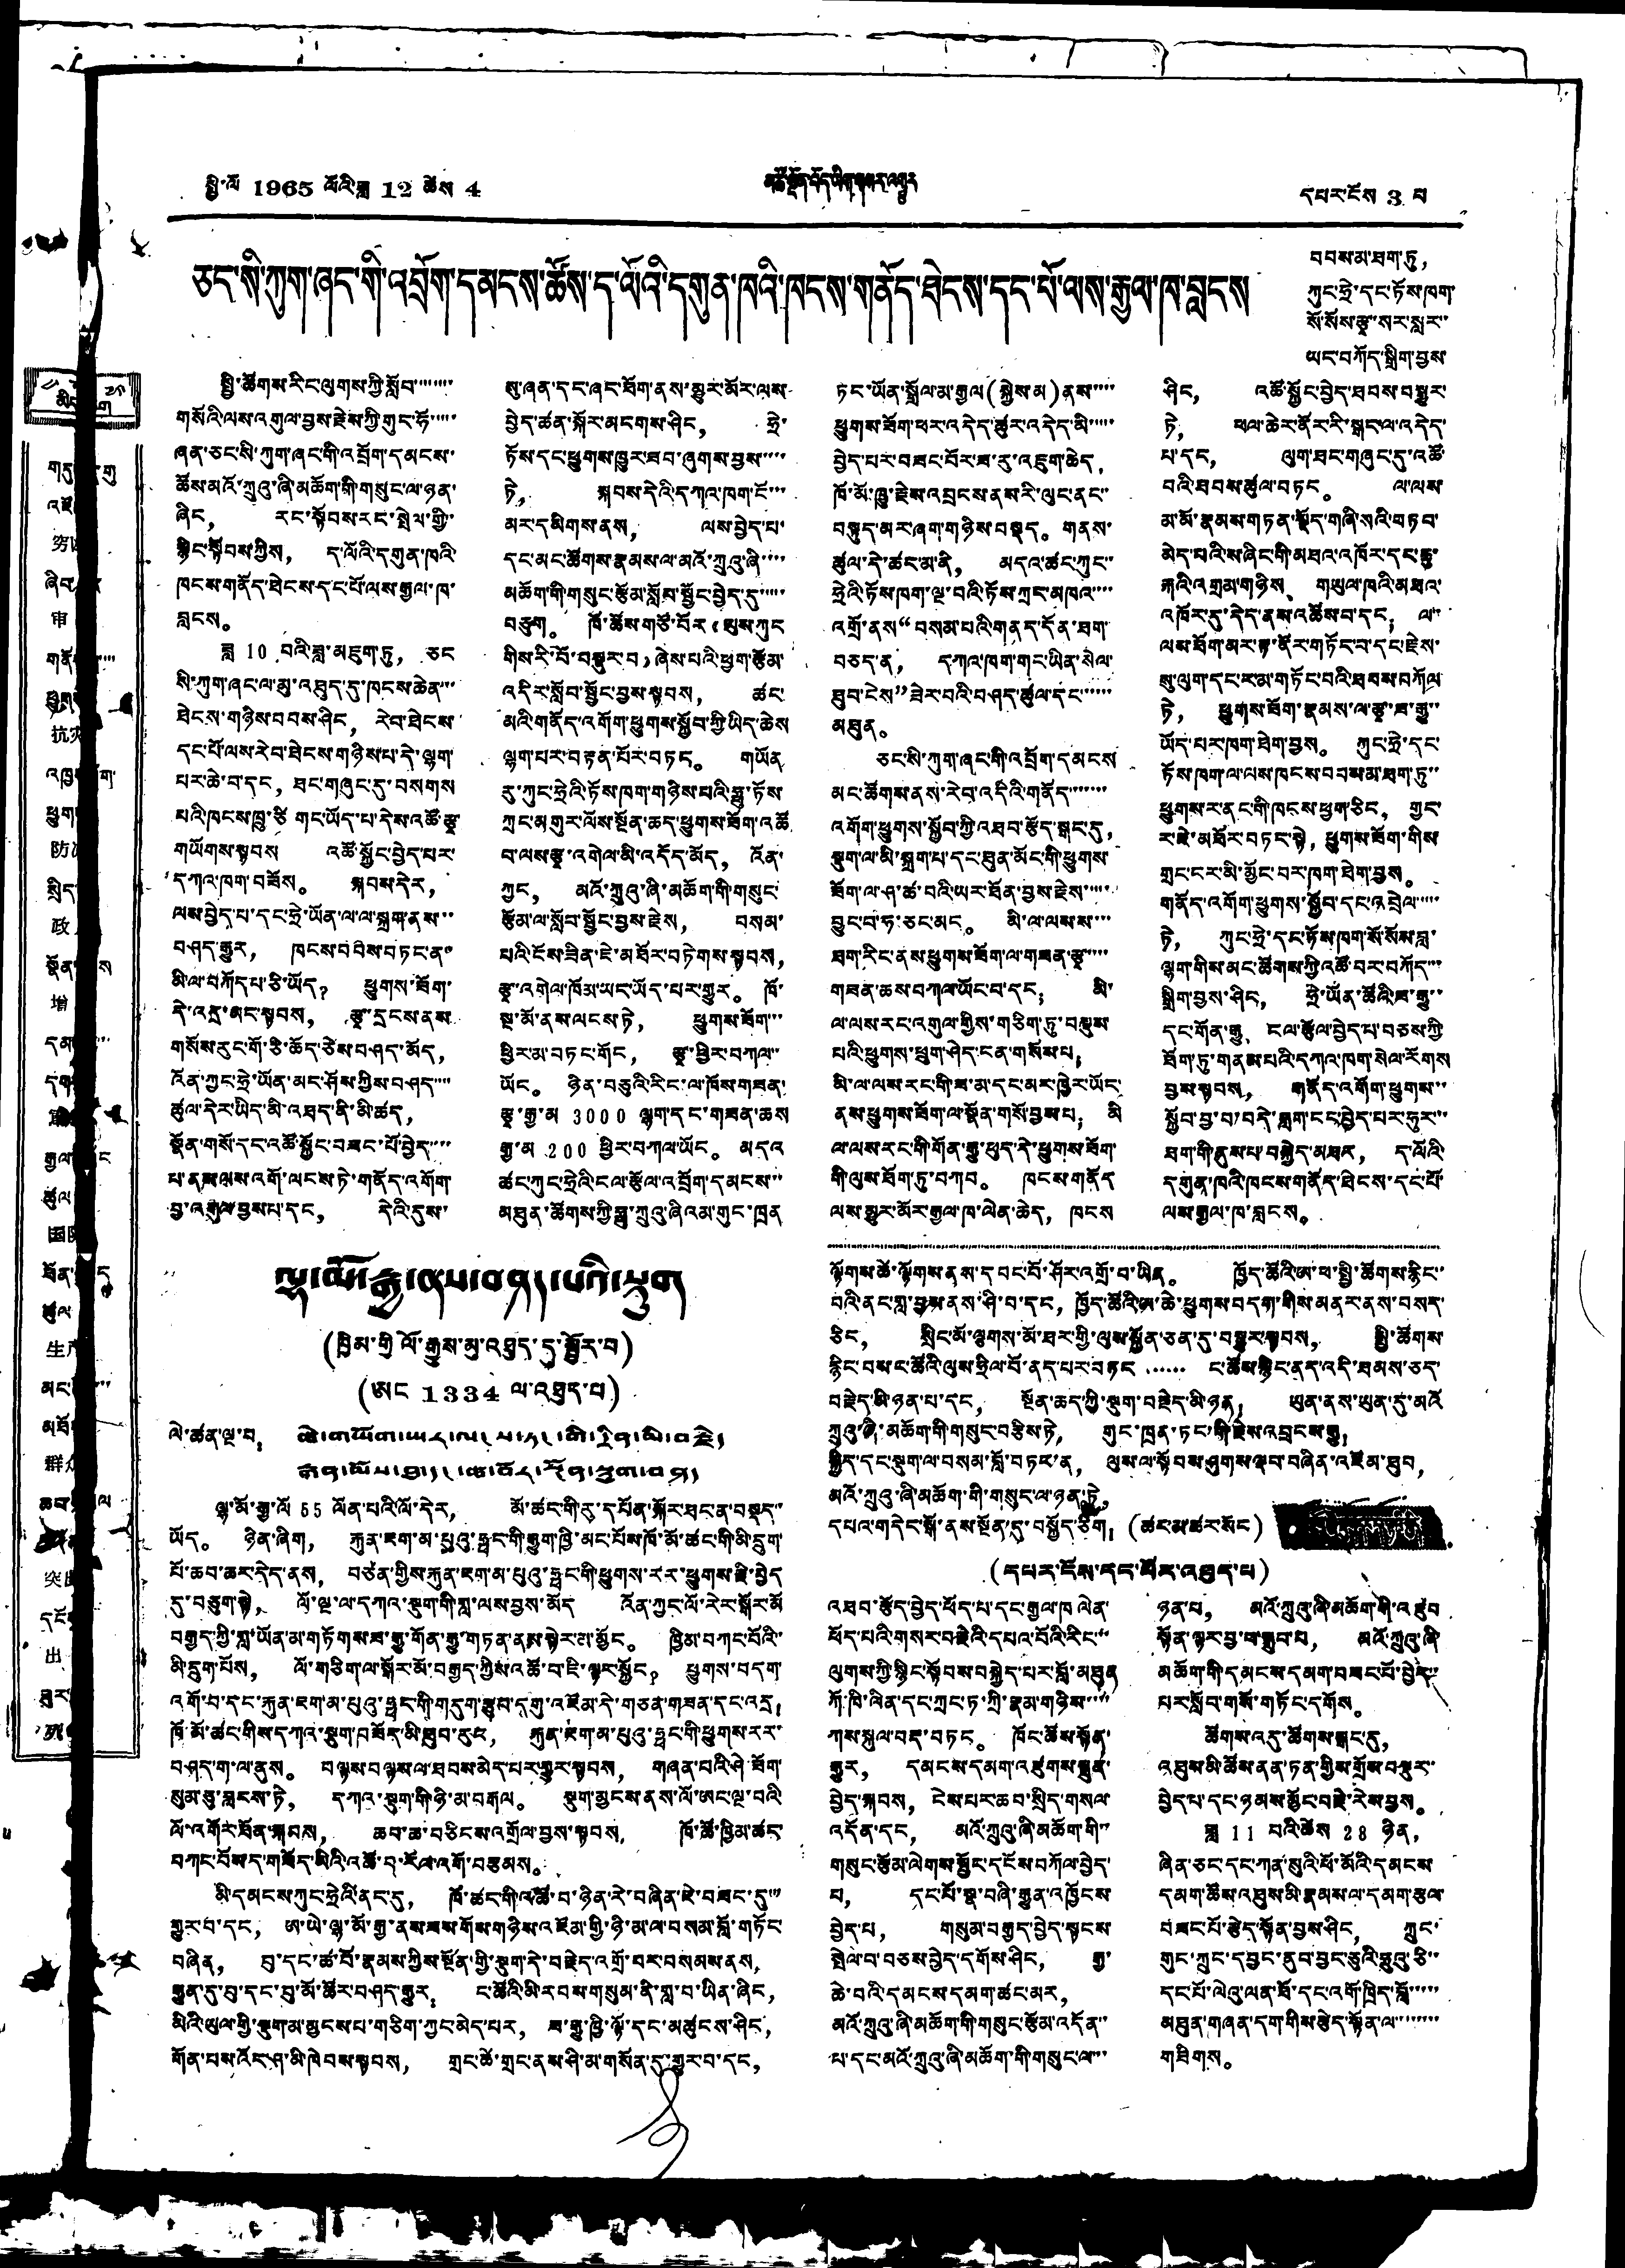མིད ག
གདུ གུ
འཛོ
穷
ཞིབ
审
གནོ་་་
ཕྱག
抗灾
འཁྱ  ག་
ཕྱུག
防凍
སྲིད
政府
སྣོན་ ས་
增
དམ ་་་
དག
第
རྒྱལ ང
ཚུལ
国際
ཐོན་སྐྱད
ཚུལ
生产
མང་ ར་་
མཐོ
群
ཆབ་ ལ
突出
དངོས
出
ཟུར
死
སྤྱི་ལོ 1965 ལོའི་ཟླ 12 ཚེས 4 མཚོ་སྔོན་བོད་ཡིག་གསར་འགྱུར དཔར་ངོས 3 པ
ཅང་སི་ཀུག་ཞང་གི་འབྲོག་དམངས་ཚོས་ད་ལོའི་དགུན་ཁའི་ཁངས་གནོད་ཐེངས་དང་པོ་ལས་རྒྱག་ཁ་བླངས
སྤྱི་ཚོགས་རིང་ལུགས་ཀྱི་སློབ་་་་་་་་
གསོའི་ལས་འགུལ་བྱས་རྗེས་ཀྱི་གུང་ཧོ་་་་་
ཞན་ཅང་སི་ཀུག་ཞང་གི་འབྲོག་དམངས་་
ཚོས་མའོ་ཀྲུའུ་ཞི་མཆོག་གི་གསུང་ལ་ཉན་
ཞིང， རང་སྟོབས་རང་སྤེལ་གྱི་
སྙིང་སྟོབས་ཀྱིས， ད་ལོའི་དགུན་ཁའི་
ཁུངས་གནོད་ཐེངས་དང་པོ་ལས་རྒྱལ་ཁ་
བླངས。
ཟླ 10 བའི་ཟླ་མཇུག་ཏུ， ཅང་
སི་ཀུག་ཞང་ལ་མུ་འཐུད་དུ་ཁངས་ཆེན་་་
ཐེངས་གཉིས་བབས་ཤིང， རེབ་ཐེངས་
དང་པོ་ལས་རེབ་ཐེངས་གཉིས་པ་དེ་ལྷག་
པར་ཆེ་བ་དང， ཐང་གཞུང་དུ་བསགས
པའི་ཁུངས་ཁྲུ་ཙི གང་ཡོད་པ་དེས་འཚོ་རྩྭ་
གཡོགས་སྟབས འཚོ་སྐྱོང་བྱེད་པར་
དཀའ་ཁག་བཟོས。 སྐབས་དེར，
ལས་བྱེད་པ་དང་ཧྲེ་ཡོན་ལ་ལ་སྐྲག་ནས་་་
བཤད་རྒྱུར， ཁུངས་བབེས་བཏང་ན་
མི་ལ་བཀོདཔ་ཅི་ཡོད？ ཕྱུགས་ཟོག་
དེ་འདྲ་མང་སྟབས， རྩྭ་དྲངས་ནས
གསོས་རུང་གོ་ཅི་ཆོད་ཅེས་བཤད་མོད，
འོན་ཀྱང་ཧྲེ་ཡོན་མང་ཤོས་ཀྱིས་བཤད་་་་
ཚུལ་དེར་ཡིད་མི་འཐད་ནི་མི་ཚད，
སྣོན་གསོ་དང་འཚོ་སྐྱོང་བཟང་པོ་བྱེད་་་་
པ་ནས ལས་འགོ་ལངས་ཏེ་གནོད་འགོག་
བྱ་འགུལ་བྱས་པ་དང， དེའི་དུས་
སུ་ཞན་དང་ཞང་ཐོག་ནས་མྱུར་མོར་ལས་
བྱེད་ཚན་སྐོར་མངགས་ཤིང， ཧྲེ་
ཏོས་དང་ཕྱུགས་ཁྱུར་ཟབ་ཞུགས་བྱས་་་་་
ཏེ， སྐབས་དེའི་དཀའ་ཁག་ངོ་་་
མར་དམིགས་ནས， ལས་བྱེད་པ་
དང་མང་ཚོགས་རྣམས་ལ་མའོ་ཀྲུའུ་ཞི་་་་
མཆོག་གི་གསུང་རྩོམ་སློབ་སྦྱོང་བྱེད་དུ་་་་་
བཅུག。 ཁོ་ཚོས་གཙོ་བོར《ལུས་ཀུང
གིས་རི་བོ་བསྡུར་བ》ཞེས་པའི་ཕྱག་རྩོམ་་
འདིར་སློབ་སྦྱོང་བྱས་སྟབས， ཚང་
མའི་གནོད་འགོག་ཕྱུགས་སྐྱོབ་ཀྱི་ཡིད་ཆེས་
ལྷག་པར་བརྟན་པོར་བཏང。 གཡོན་
རུ་ཀུང་ཧྲེའི་ཏོས་ཁག་གཉིས་པའི་ཧྥུ་ཏོས
ཀྲང་མགུར་ལོས་སྔོན་ཆད་ཕྱུགས་ཟོག་འཚོ་
བ་ལས་རྩྭ་འགེལ་མི་འདོད་མོད， འོན་
ཀྱང， མའོ་ཀྲུའུ་ཞི་མཆོག་གི་གསུང་
རྩོམ་ལ་སློབ་སྦྱོང་བྱས་རྗེས， བསམ་
པའི་ངོས་ཟིན་ཇེ་མཐོར་བཏེགས་སྟབས，
རྩྭ་འགེལ་ཁོམ་ཡང་ཡོད་པར་གྱུར。 ཁོ་
སྔ་མོ་ནས་ལངས་ཏེ， ཕྱུགས་ཟོག་་་
ཕྱིར་མ་བཏང་གོང， རྩྭ་ཕྱིར་བཀལ་་
ཡོང。 ཉིན་བཅུའི་རིང་ལ་ཁོས་གཟན་
རྩྭ་རྒྱ་མ 3000 ལྷག་དང་གཟན་ཆས
རྒྱ་མ 200 ཕྱིར་བཀལ་ཡོང。 མདའ
ཚང་ཀུང་ཧྲེའི་ངལ་རྩོལ་འབྲོག་དམངས་་་
མཐུན་ཚོགས་ཀྱི་ཧྥུ་ཀྲུའུ་ཞིའམ་གུང་ཁྲན་
ཏང་ཡོན་སྒྲོལ་མ་རྒྱལ (སྐྱེས་མ) ནས་་་་་
ཕྱུགས་ཟོག་ཕར་འདེད་ཚུར་འདེད་མི་་་་་
བྱེད་པར་བཟང་པོར་ཟ་རུ་འཇུག་ཆེད，
ཁོ་མོ་ཁྱུ་རྗེས་འབྲངས་ནས་རི་ལུང་ནང་་
བསྟུད་མར་ཞག་གཉིས་བསྡད。 གནས་
ཚུལ་དེ་ཚང་མ་ནི， མདའ་ཚང་ཀུང་་
ཧྲེའི་ཏོས་ཁག་ལྔ་བའི་ཏོས་ཀྲུང་མཁའ་་་་
འགྲོ་ནས“བསམ་པའི་གནད་དོན་ཐག་་
བཅད་ན， དཀའ་ཁག་གང་ཡིན་སེལ་
ཐུབ་ངེས”ཟེར་བའི་བཤད་ཚུལ་དང་་་་་་
མཐུན。
ཅང་སི་ཀུག་ཞང་གི་འབྲོག་དམངས
མང་ཚོགས་ནས་རེབ་འདིའི་གནོད་་་་་་་
འགོག་ཕྱུགས་སྐྱོབ་ཀྱི་འཐབ་རྩོད་སྒང་དུ，
སྡུག་ལ་མི་སྐྲག་པ་དང་ཐུན་མོང་གི་ཕྱུགས་
ཟོག་ལ་ཤ་ཚ་བའི་ཡར་ཐོན་བྱས་རྗེས་་་་་་
བྱུང་བ་ཧ་ཅང་མང。 མི་ལ་ལས་ས་་་་
ཐག་རིང་ནས་ཕྱུགས་ཟོག་ལ་གཟན་རྩྭ་་་་་
གཟན་ཆས་བཀལ་ཡོང་བ་དང； མི་
ལ་ལས་རང་འགུལ་གྱིས་གཅིག་ཏུ་བསྡུས་
པའི་ཕྱུགས་ཕྲུག་ཤེད་ངན་གསོས་པ；
མི་ལ་ལས་རང་གི་ཟ་མ་དང་མར་ཁྱེར་ཡོང་
ནས་ཕྱུགས་ཟོག་ལ་སྣོན་གསོ་བྱས་པ； མི་
ལ་ལས་རང་གི་གོན་རྒྱུ་ཕུད་དེ་ཕྱུགས་ཟོག་
གྱི་ལུས་ཐོག་ཏུ་བཀབ。 ཁུངས་གནོད་
ལས་མྱུར་མོར་རྒྱལ་ཁ་ལེན་ཆེད， ཁུངས
བབས་མ་ཐག་ཏུ，
ཀུང་ཧྲེ་དང་ཏོས་ཁག་
སོ་སོས་རྩྭ་སར་སླར་་
ཡང་བཀོད་སྒྲིག་བྱས་
ཤིང， འཚོ་སྐྱོང་བྱེད་ཐབས་བསྒྱུར་
ཏེ， ཕལ་ཆེར་ནོར་རི་སྒང་ལ་འདེད་
པ་དད， ལུག་ཐང་གཞུང་དུ་འཚོ་
བའི་ཐབས་ཚུལ་བཏང。 ལ་ལས་
མ་མོ་རྣམས་གཏན་སྡོད་གཞི་སའི་བཏབ་
མེད་པའི་ས་ཞིང་གི་མཐའ་འཁོར་དང་ཆུ་
རྐའི་འགྲམ་གཉིས、 གཡུལ་ཁའི་མཐའ་
འཁོར་དུ་དེད་ནས་འཚོས་བ་དང； ལ་་
ལས་ཐོག་མར་རྟ་ནོར་གཏོང་བ་དང་རྗེས་
སུ་ལུག་དང་རམ་གཏོང་བའི་ཐབས་བཀོལ་
ཏེ， ཕྱུགས་ཟོག་རྣམས་ལ་རྩྭ་ཟ་རྒྱུ་་
ཡོད་པར་ཁག་ཐེག་བྱས。 ཀུང་ཧྲེ་དང་
ཏོས་ཁག་ལ་ལས་ཁུངས་བབམ་མ་ཐག་ཏུ་་་
ཕྱུགས་ར་ནང་གི་ཁུངས་ཕྱུག་ཅིང， གྱང་
ར་ཇེ་མཐོར་བཏང་སྟེ， ཕྱུགས་ཟོག་གིས
གྲང་ངར་མི་མྱོང་བར་ཁག་ཐེག་བྱས。
གནོད་འགོག་ཕྱུགས་སྐྱོབ་དང་འབྲེལ་་་་་
ཏེ， ཀུང་ཧྲེ་དང་ཉོས་ཁག་སོ་སོས་བླ་
ལྷག་གིས་མང་ཚོགས་ཀྱི་འཚོ་བར་བཀོད་་་
སྒྲིག་བྱས་ཤིད， ཧྲི་ཡོན་ཚོའི་ཟ་རྒྱུ་་
དང་གོན་རྒྱུ， ངལ་རྩོལ་བྱེད་པ་བཅས་ཀྱི་
ཐོག་ཏུ་གནམ་པའི་དཀའ་ཁག་སེལ་རོགས
བྱས་སྟབས， གནོད་འགོག་ཕྱུགས་་
སྐྱོབ་བྱ་བ་བདེ་བླག་ངང་བྱེད་པར་ཧུར་་་
ཐག་གི་ནུས་པ་བསྐྱེད་མཐར， ད་ལོའི་
དགུན་ཁའི་ཁངས་གནོད་ཐེངས་དང་པོ་
ལས་རྒྱལ་ཁ་བླངས。
ལྷ་མོ་རྒྱ་ནས་བཤད་པའི་སྡུག
(ཁྱིམ་གྱི ལོ་རྒྱུས་མུ་འཐུད་དུ་སྦྱོར་བ)
(ཨང 1334 ལ་འཐུད་པ)
ལེ་ཚན་ལྔ་པ： ཆེ་གཡོག་ཡར་ལ་ས་ཏང་གི་དྲིན་མི་བརྗེད
རྒན་མོས་ཐ་དང་ཚ་བོར་སྔོན་སྡུག་བཤད
ལྷ་མོ་རྒྱ་ལོ 55 ལོན་པའི་ལོ་དེར， མོ་ཚང་གི་རུ་དཔོན་སྐོར་ཐང་ན་བསྡད་་
ཡོད。 ཉིན་ཞིག， རྐུན་ཇག་མ་པུའུ་ཧྥང་གི་རྒྱུག་ཁྱི་མང་པོས་ཁོ་མོ་ཚང་གི་མི་དྲུག་
པོ་ཆབ་ཆར་དེད་ནས， བཙན་གྱིས་རྐུན་ཇག་མ་པུའུ་ཧྥང་གི་ཕྱུགས་རར་ཕྱུགས་རྗི་བྱེད
དུ་བཅུག་སྟེ， ལོ་ལྔ་ལ་དཀའ་སྡུག་གི་གླ་ལས་བྱས་མོད འོན་ཀྱང་ལོ་རེར་སྒོར་མོ
བརྒྱད་ཀྱི་གླ་ཡོན་མ་གཏོགས་པ་རྒྱུ་གོན་རྒྱུ་གཏན་ནས་སྟེར་མ་མྱོང。 ཁྱིམ་བཀང་པོའི་་
མི་དྲུག་པོས， ལོ་གཅིག་ལ་སྒོར་མོ་བརྒྱད་ཀྱིས་འཚོ་བ་ཇི་ལྟར་སྐྱོང。 ཕྱུགས་བདག་
འགོ་བ་དང་རྐུན་ཇག་མ་པུའུ་ཧྥང་གི་གདུག་རྩུབ་དགུ་འཛོམ་དེ་གཅན་གཟན་དང་འདྲ；
ཁོ་མོ་ཚང་གིས་དཀའ་སྡུག་བཟོད་མི་ཐུབ་རུང， རྐུན་ཇག་མ་པུའུ་ཧྥང་གི་ཕྱུགས་རར་
བཤད་ག་ལ་ནུས。 བལྟས་བལྟས ལ་ཐབས་མེད་པར་གྱུར་སྐབས， གཞན་པའི་ཤེ་ཟོག་
སུམ་ཅུ་ཟླངས་ཏེ， དཀའ་སྡུག་གི་ཉི་མ་བརྒལ。 སྡུག་མྱངས་ནས་ལོ་ཨང་ལྔ་བའི་
ལོ་འགོར་ཐོན་སྐབས， ཆབ་ཆ་བཅིངས་འགྲོལ་བྱས་སྟབས， ཁོ་ཚོ་ཁྱིམ་ཚང་
བཀང་བོསད་གཟོད་མིའི་འཚོ་བ་རོལ་འགོ་བརྩམས。
མི་དམངས་ཀུང་ཧྲེའི་ནང་དུ， ཁོ་ཚང་གི་འཚོ་བ་ཉིན་རེ་བཞིན་ཇེ་བཟང་དུ་་་
གྱུར་བ་དང， ཨ་ཡེ་ལྷ་མོ་རྒྱ་ནས་ཟས་གོས་གཉིས་འཛོམ་གྱི་ཉི་མ་ལ་བསམ་བློ་གཏོང་
བཞིན， བུ་དང་ཚ་བོ་རྣམས་ཀྱིས་སྔོན་གྱི་སྡུག་དེ་བརྗེད་འགྲོ་བར་བསམས་ནས，
རྒྱུན་དུ་བུ་དང་བུ་མོ་ཚོར་བཤད་རྒྱུར： ང་ཚོའི་མི་རབས་གསུམ་ནི་གླ་བ་ཡིན་ཞིང，
མིའི་ཡུལ་གྱི་སྡུག་མ་མྱངས་པ་གཅིག་ཀྱང་མེད་པར， ཟ་རྒྱུ་ཁྱི་ལྟོ་དང་མཚུངས་ཤིང，
གོན་པས་འོང་ཤ་མི་ཁེབས་སྐབས， གྲང་ཚེ་གྲང་ནས་ཤི་མ་གསོན་དུ་གྱུར་བ་དང，
ལྟོགས་ཚེ་ལྟོགས་ནས་དབང་པོ་ཤོར་འགྲོ་བ་ཡིན。 ཁྱོད་ཚོའི་ཨ་ཕ་སྤྱི་ཚོགས་རྙིང་་
བའི་ནང་གླ་བྱས་ནས་ཤི་བ་དང，ཁྱོད་ཚོའི་ཨ་ཆེ་ཕྱུགས་བདག་གིས་མནར་ནས་བསད་
ཅིང， སྲིང་མོ་ལྕགས་མོ་ཐར་གྱི་ལུས་སྐྱོན་ཅན་དུ་བསྒྱུར་སྟབས， སྤྱི་ཚོགས་
རྙིང་བས་ང་ཚོའི་ལུས་ཧྲིལ་པོ་ནད་པར་བཏང ་་་་་་ ང་ཚོས་སྙིང་ནད་འདི་ཐམས་ཅད་
བརྗེད་མི་ཉན་པ་དང， སྔོན་ཆད་ཀྱི་སྡུག་བརྗེད་མི་ཉན！ ཡུན་ནས་ཡུན་དུ་མའོ་
ཀྲུའུ་ཞི་མཆོག་གི་གསུང་བརྩིས་ཏེ， གུང་ཁྲན་ཏང་གི་རྗེས་འབྲངས་རྒྱུ！
སྐྱིད་དང་སྡུག་ལ་བསམ་བློ་བཏང་ན， ལུས་ལ་སྟོབས་ཤུགས་ལྡབ་བཞིན་འཛོམ་ཐུབ，
མའོ་ཀྲུའུ་ཞི་མཆོག་གི་གསུང་ལ་ཉན་ཏེ，
དཔའ་གདེང་སྒོ་ནས་སྔོན་དུ་བསྐྱོད་ཅིག！
(ཚང་མ་ཚར་སོང་ )
(དཔར་ངོས་དང་པོར་འཐུད་པ)
འཐབ་རྩོད་བྱེད་ཕོད་པ་དང་རྒྱལ་ཁ ལེན་
ཕོད་པའི་གསར་བརྗེའི་དཔའ་བོའི་རིང་་་
ལུགས་ཀྱི་སྙིང་སྟོབས་བསྐྱེད་པར་བློ་མཐུན
ཀོ་ཁི་ལིན་དང་ཀྲང་ཏ་ཀྲི་རྣམ་གཉིས་་་་་
ཀས་སྐུལ་བརྡ་བཏང。 ཁོང་ཚོས་སྟོན་
རྒྱུར， དམངས་དམག་འཛུགས་སྐྲུན་
བྱེད་སྐབས， ངེས་པར་ཆབ་སྲིད་གསལ་
འདོན་དང， མའོ་ཀྲུའུ་ཞི་མཆོག་གི་་
གསུང་རྩོམ་ལེགས་སྦྱོང་དངོས་བཀོལ་བྱེད་
པ， དང་པོ་སྣ་བཞི་རྒྱུན་འཁྱོངས་
བྱེད་པ， གསུམ་བརྒྱུད་བྱེད་སྟངས་
སྤེལ་བ་བཅས་བྱེད་དགོས་ཤིང， རྒྱ་
ཆེ་བའི་དམངས་དམག་ཚང་མར，
མའོ་ཀྲུའུ་ཞི་མཆོག་གི་གསུང་རྩོམ་འདོན་་
པ་དང་མའོ་ཀྲུའུ་ཞི་མཆོག་གི་གསུང་ལ་་་
ཉན་པ， མའོ་ཀྲུའུ་ཞི་མཆོག་གི་འཛུབ
སྟོན་ལྟར་བྱ་བ་སྒྲུབ་པ， མའོ་ཀྲུའུ་ཞི་
མཆོག་གི་དམངས་དམག་བཟང་པོ་བྱེད་་
པར་སློབ་གསོ་གཏོང་དགོས。
ཚོགས་འདུ་ཚོགས་སྒང་དུ，
འཐུས་མི་ཚོས་ནན་ཏན་གྱིས་གྲོས་བསྡུར་་
བྱེད་པ་དང་ཉམས་མྱོང་བརྗེ་རེས་བྱས。
ཟླ 11 པའི་ཚེས 28 ཉིན，
ཞིན་ཅང་དང་ཀན་སུའི་ཕོ་མོའི་དམངས་
དམག་ཚོས་འཐུས་མི་རྣམས་ལ་དམག་རྩལ་
བཟང་པོ་རྩེད་སྟོན་བྱས་ཤིང， ཀྲུང་
གུང་ཀྲུང་དབྱང་ནུབ་བྱང་ཅུའི་ཧྲུའུ་ཅི་་
དང་པོ་ལེའུ་ལན་ཐོ་དང་འགོ་ཁྲིད་བློ་་་་་
མཐུན་གཞན་དག་གིས་རྩེད་སྟོན་ལ་་་་་་་་
གཟིགས。
